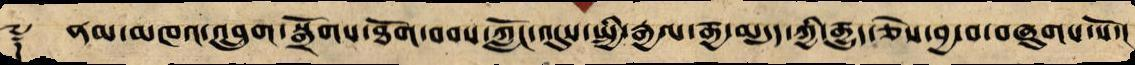༈ ནམ་མཁའ་འབྲུག་སྒྲོགས་ཐོག་བབས་ཀློང་འདུས་སྤྱི་རྒྱལ་རྒྱ་མདུད་ཀྱི་རྒྱུད་ཅེས་བྱ་བ་བཞུགས་སོ་།
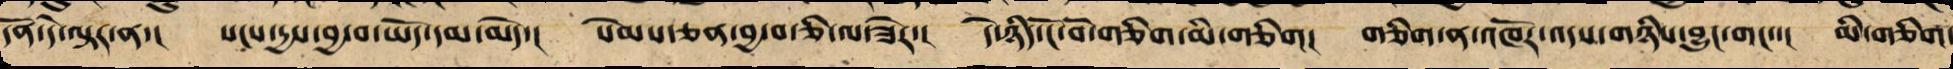དོན་དེ་ལྟར་ན་། སངས་དྱས་བྱ་བ་ཡོད་དམ་མེད་། སེམས་ཅན་བྱ་བ་ཅི་ལ་ཟེར་། དེ་ཉིད་ངོ་བོ་གཅིག་མི་གཅིག། གཅིག་ན་འཁོར་འདས་གཉིས་བྱུང་གང་་། མི་གཅིག་
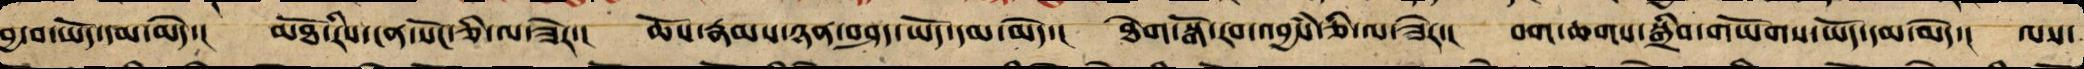བྱ་བ་ཡོད་དམ་མེད་། མཐོ་རིས་ངན་སོང་ཅི་ལ་ཟེར་། ཆོས་རྣམས་ཉན་བཤད་ཡོད་དམ་མེད་། ཐེག་སྒོ་རབ་འབྱཾས་ཅི་ལ་ཟེར་། བག་ཆགས་སྒྲིབ་གཡོགས་ཡོད་དམ་མེད་། ལས་
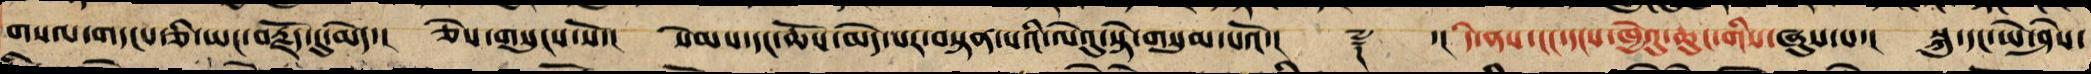གསལ་གདངས་ཅིར་ཡང་བརྗོད་དུ་མེད་། ཅེས་གསུངས་སོ་། སེམས་དང་ཆོས་མེད་པར་བསྟན་པའི་ལེའུ་སྟེ་གསུམ་པའོ་།། ༈ ་།། དེ་ནས་ངང་དངས་ཁྱེའུ་ཆུང་གིས་ཞུས་པ་། སྐུ་དང་ཡེ་ཤེས་
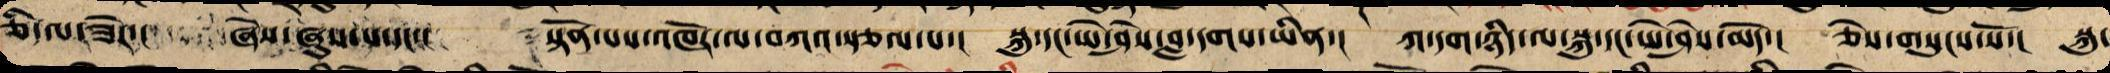ཅི་ལ་ཟེར་། ཞེས་ཞུས་པ་དང་་། སྟོན་པས་འཁོར་ལ་བཀའ་སྩལ་པ་། སྐུ་དང་ཡེ་ཤེས་བླ་དགས་ཡིན་། ཀ་དག་ཉིད་ལ་སྐུ་དང་ཡེ་ཤེས་མེད་། ཅེས་གསུངས་སོ་། སྐུ་
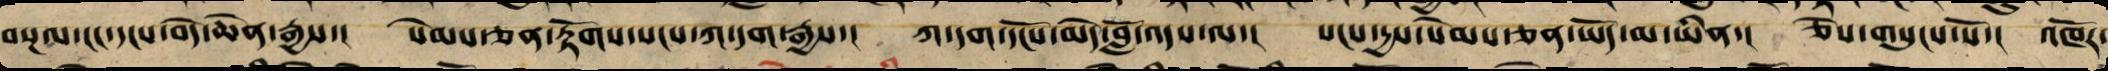བསྔལ་ངང་དངས་བདེ་ཆེན་རྒྱས་། སེམས་ཅན་རྟོག་སངས་ཀ་དག་རྒྱས་། ཀ་དག་དངོས་མེད་བློ་འདས་ལ་། སངས་རྒྱས་སེམས་ཅན་ཡོད་མ་ཡིན་། ཅེས་གསུངས་སོ་། འཁོར་
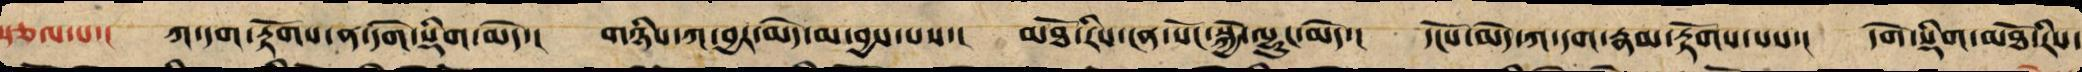སྩལ་པ་། ཀ་དག་རྟོགས་ན་དགེ་སྡིག་མེད་། གཉིས་ཀ་བྱར་མེད་མ་བྱས་པས་། མཐོ་རིས་ངན་སོང་སྐྱེ་ལྷུང་མེད་། དངོས་མེད་ཀ་དག་རྣལ་རྟོགས་པས་། དགེ་སྡིག་མཐོ་རིས་
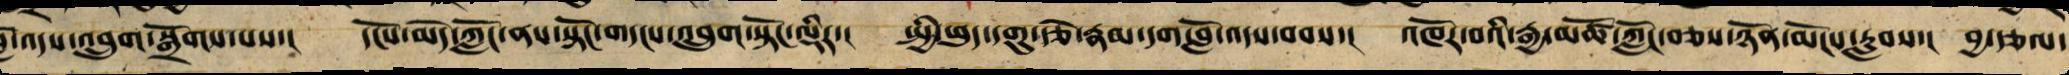བློ་འདས་འབྲུག་སྒྲོགས་པས་། དངོས་མེད་ཀློང་ནས་སྟོང་གདངས་འབྲུག་སྟོང་ལྡིར་། སྤྱི་ཕུད་དགུ་རྩེ་རྣམ་དག་བློ་འདས་བབས་། འཁོར་བའི་རྒྱ་མཚོ་ཀློང་བཅས་ཉོན་མོངས་རླབ་ས། བྱ་རྩལ་
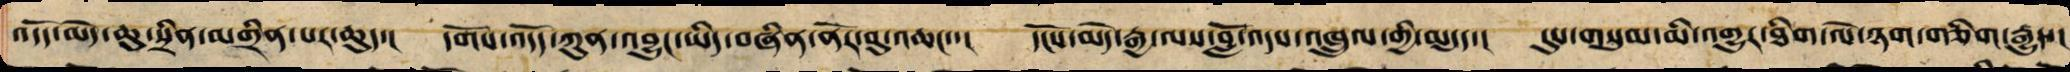ཞེ་འདོད་མེད་པར་ཆུ་སྲིན་མགྲིན་པར་ཆུད་། དགོས་འདོད་ཀུན་འབྱུང་ཡིད་བཞིན་ནོར་བུ་འཆང་་། དངོས་མེད་རྒྱ་ལས་བློ་འདས་འཕྲུལ་གྱི་མདུད་། དུས་གསུམ་མི་འགྱུར་ཐིག་ལེ་ཉག་གཅིག་རྒྱུད་།
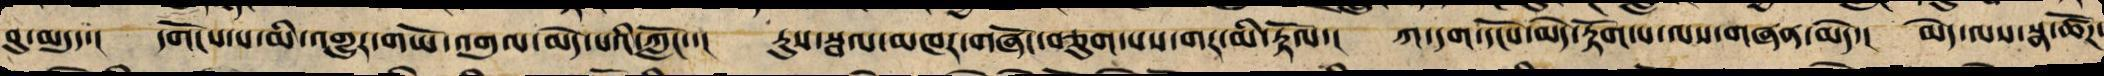བུ་མདུད་། དགོངས་པ་མི་འགྱུར་གཡོ་འགུལ་མེད་པའི་ཀློང་་། རུས་སྦལ་མཁར་གཞོང་བཅུག་པས་གར་མི་རྟོལ་། ཀ་དག་དངོས་མེད་རྟོག་པ་ལས་གཞན་མེད་། མེད་ལས་སྣ་ཚོཌ་
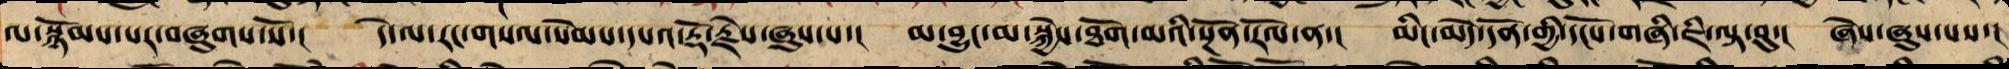ལ་སྙོམས་པར་ཞུགས་སོ་། དེ་ལ་རང་གསལ་སེམས་དཔའ་རྡོ་རྗེས་ཞུས་པ་། མ་བྱུང་མ་སྐྱེས་ཐོག་མའི་སྔོན་རོལ་ན་། མིང་མེད་དོན་གྱི་དངོས་གཞི་ཇི་ལྟ་བུ་། ཞེས་ཞུས་པས་།
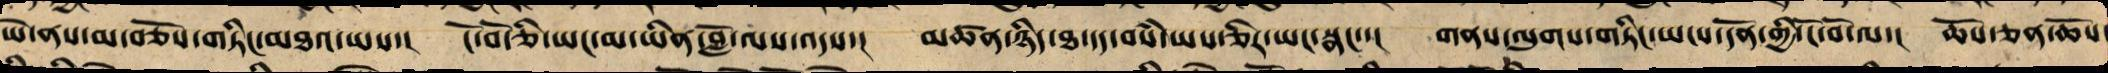ཡེ་ནས་མ་བཅོས་གཏིང་མཐའ་ཡས་། ངོ་བོ་ཅི་ཡང་མ་ཡིན་བློ་ལས་འདས་། མཚན་ཉིད་ཐ་དད་བསཾ་ཡས་ཅིར་ཡང་སྣང་་། གནས་ལུགས་གཏིང་ཡངས་དོན་གྱི་ངོ་བོ་ལ་། ཆོས་ཅན་ཆོས
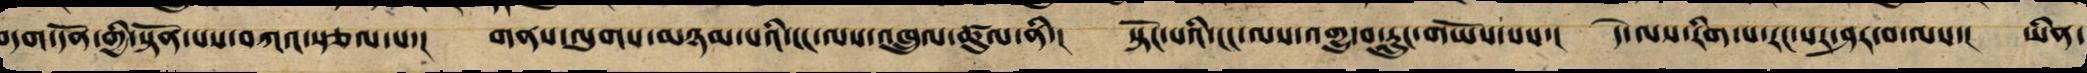བདག་དོན་གྱི་སྟོན་པས་བཀའ་སྩལ་པ་། གནས་ལུགས་མཉམ་པའི་ངང་ལས་འཁྲུལ་ཚུལ་ནི་། སྟོང་པའི་ངང་ལས་འགྱུ་བ་རླུང་གཡོས་པས་། དེ་ལས་རིག་པ་རང་སར་ཤར་བ་ལས་། ཡིན་
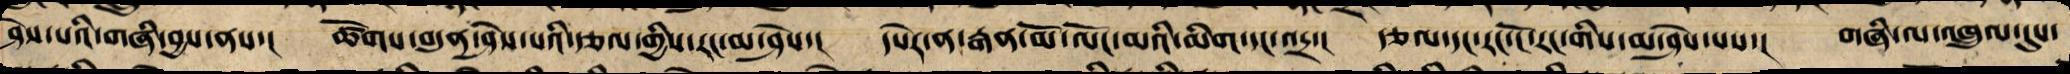ཤེས་པས་གཞི་བྱས་ནས་། ཚོགས་བདུན་ཤེས་པའི་རྩལ་གྱིས་རང་མ་ཤེས་། དཔེར་ན་རྒན་མོ་ལོང་བའི་མིག་དང་འདྲ་། རྩལ་དང་རང་ངོ་རང་གིས་མ་ཤེས་པས་། གཞི་ལ་འཁྲུལ་དུས་
